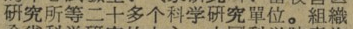研究所等二十多个科学研究單位。組織
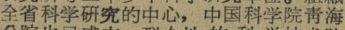全省科学研究的中心，中国科学院靑海
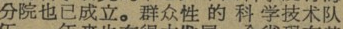分院也已成立。群众性 的 科 学技术队
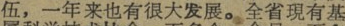伍，一年来有很大发展。全省現有基
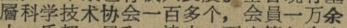層科学技术协会一百多个，会員一万余
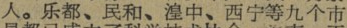人。乐都、民和、湟中、西宁等九个市
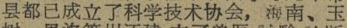县都已成立了科学技术协会，海南、玉
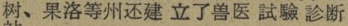树、果洛等州还建 立了兽医 試驗 診断
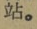站。
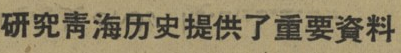研究靑海历史提供了重要資料
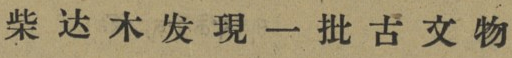柴 达 木 发 現 一 批 古 文 物
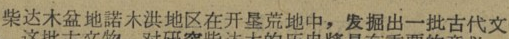柴达木盆地诺木洪地区在开垦荒地中，发掘出一批古代文
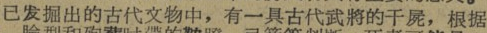已发掘出的古代文物中，有一具古代武將的干屍，根据
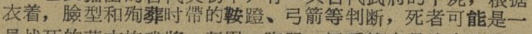衣着，脸型和殉葬时带的鞍蹬、弓箭等判断，死者可能是一
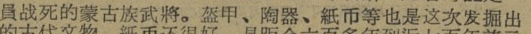員战死的蒙古族武將。盔甲、陶器、紙币等也是这次发掘出
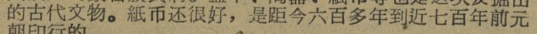的古代文物。紙币还很好，是距今六百多年到近七百年前元
